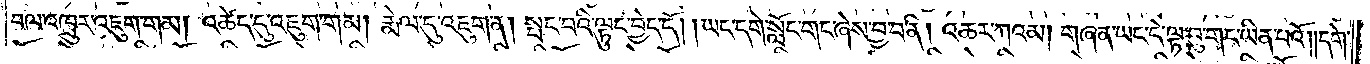བལ་འཁྲུར་འཇུག་གམ། འཚེད་དུ་འཇུག་གམ། རྨེལ་དུ་འཇུག་ན། སྤང་བའི་ལྟུང་བྱེད་དོ། །ཡང་དགེ་སློང་གང་ཞེས་བྱ་བ་ནི། འཆར་ཀའམ། གཞན་ཡང་དེ་ལྟ་བུ་གང་ཡིན་པའོ༎དགེ་
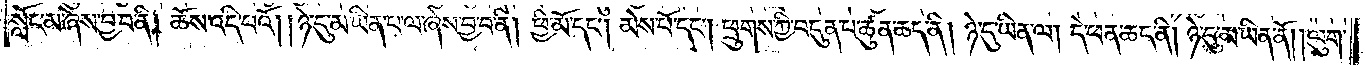སློང་མ་ཞེས་བྱ་བ་ནི། ཆོས་འདི་པའོ། །ཉེ་དུ་མ་ཡིན་པ་ལ་ཞེས་བྱ་བ་ནི། ཕྱི་མོ་དང༌། མེས་པོ་དང༌། ཕྲུགས་ཀྱི་བདུན་པ་ཚུན་ཆད་ནི། ཉེ་དུ་ཡིན་ལ། དེ་ཕན་ཆད་ནི། ཉེ་དུ་མ་ཡིན་ནོ། །ལུག་
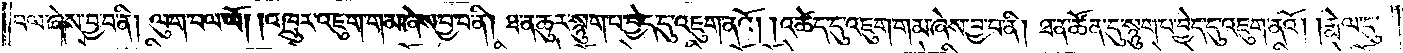བལ་ཞེས་བྱ་བ་ནི། ལུག་བལ་ལོ། །འཁྲུར་འཇུག་གམ་ཞེས་བྱ་བ་ནི། ཐ་ན་ཆུར་སྙུག་པ་བྱེད་དུ་འཇུག་ནའོ། །འཚེད་དུ་འཇུག་གམ་ཞེས་བྱ་བ་ནི། ཐ་ན་ཚོན་དུ་སྙུག་པ་བྱེད་དུ་འཇུག་ནའོ། །རྨེལ་དུ་
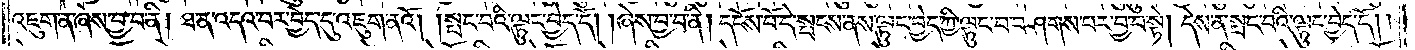འཇུག་ན་ཞེས་བྱ་བ་ནི། ཐ་ན་འདའ་བར་བྱེད་དུ་འཇུག་ནའོ། །སྤང་བའི་ལྟུང་བྱེད་དོ། །ཞེས་བྱ་བ་ནི། དངོས་པོ་དེ་སྤངས་ནས་ལྟུང་བྱེད་ཀྱི་ལྟུང་བ་བཤགས་པར་བྱ་བ་སྟེ། དེས་ན་སྤང་བའི་ལྟུང་བྱེད་དོ༎
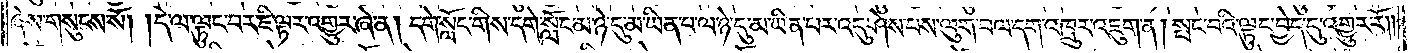ཞེས་གསུངས་སོ། །དེ་ལ་ལྟུང་བར་ཇི་ལྟར་འགྱུར་ཞེ་ན། དགེ་སློང་གིས་དགེ་སློང་མ་ཉེ་དུ་མ་ཡིན་པ་ལ་ཉེ་དུ་མ་ཡིན་པར་འདུ་ཤེས་པས་ལུག་བལ་དག་འཁྲུར་འཇུག་ན། སྤང་བའི་ལྟུང་བྱེད་དུ་འགྱུར་རོ༎
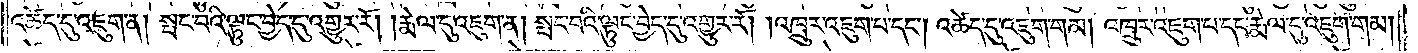འཚེད་དུ་འཇུག་ན། སྤང་བའི་ལྟུང་བྱེད་དུ་འགྱུར་རོ། །རྨེལ་དུ་འཇུག་ན། སྤང་བའི་ལྟུང་བྱེད་དུ་འགྱུར་རོ། །འཁྲུར་འཇུག་པ་དང༌། འཚེད་དུ་འཇུག་གམ། འཁྲུར་འཇུག་པ་དང་རྨེལ་དུ་འཇུག་གམ།
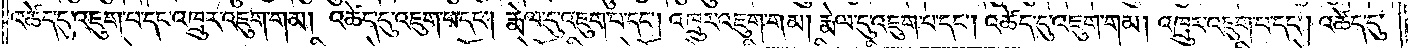འཚེད་དུ་འཇུག་པ་དང་འཁྲུར་འཇུག་གམ། འཚེད་དུ་འཇུག་པ་དང༌། རྨེལ་དུ་འཇུག་པ་དང༌། འཁྲུར་འཇུག་གམ། རྨེལ་དུ་འཇུག་པ་དང༌། འཚེད་དུ་འཇུག་གམ། འཁྲུར་འཇུག་པ་དང༌། འཚེད་དུ་
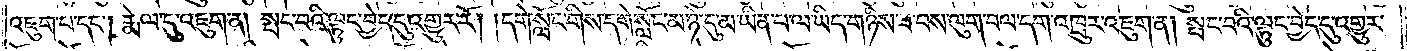འཇུག་པ་དང༌། རྨེལ་དུ་འཇུག་ན། སྤང་བའི་ལྟུང་བྱེད་དུ་འགྱུར་རོ། །དགེ་སློང་གིས་དགེ་སློང་མ་ཉེ་དུ་མ་ཡིན་པ་ལ་ཡིད་གཉིས་ཟ་བས་ལུག་བལ་དག་འཁྲུར་འཇུག་ན། སྤང་བའི་ལྟུང་བྱེད་དུ་འགྱུར་
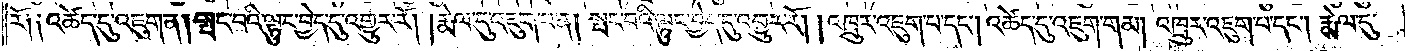རོ༑ འཆེད་དུ་འཇུག་ན། སྤང་བའི་ལྟུང་བྱེད་དུ་འགྱུར་རོ། །རྨེལ་དུ་འཇུག་པ་ན། སྤང་བའི་ལྟུང་བྱེད་དུ་འགྱུར་རོ། །འཁྲུར་འཇུག་པ་དང༌། འཆེད་དུ་འཇུག་གམ། འཁྲུར་འཇུག་པ་དང༌། རྨེལ་དུ་
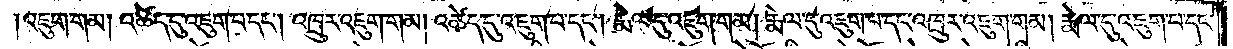འཇུག་གམ། འཚེད་དུ་འཇུག་པ་དང༌། འཁྲུར་འཇུག་གམ། འཚེད་དུ་འཇུག་པ་དང༌། རྨེལ་དུ་འཇུག་གམ། རྨེལ་དུ་འཇུག་པ་དང་འཁྲུར་འཇུག་གམ། རྨེལ་དུ་འཇུག་པ་དང་
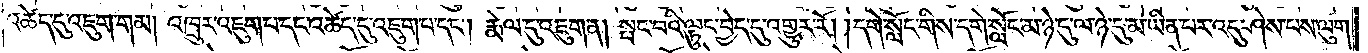འཚེད་དུ་འཇུག་གམ། འཁྲུར་འཇུག་པ་དང་འཚེད་དུ་འཇུག་པ་དང༌། རྨེལ་དུ་འཇུག་ན། སྤང་བའི་ལྟུང་བྱེད་དུ་འགྱུར་རོ། །དགེ་སློང་གིས་དགེ་སློང་མ་ཉེ་དུ་ལ་ཉེ་དུ་མ་ཡིན་པར་འདུ་ཤེས་པས་ལུག་
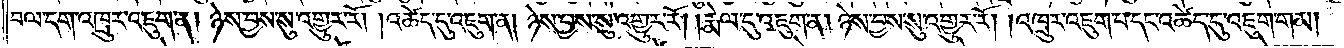བལ་དག་འཁྲུར་འཇུག་ན། ཉེས་བྱས་སུ་འགྱུར་རོ། །འཚེད་དུ་འཇུག་ན། ཉེས་བྱས་སུ་འགྱུར་རོ། །རྨེལ་དུ་འཇུག་ན། ཉེས་བྱས་སུ་འགྱུར་རོ། །འཁྲུར་འཇུག་པ་དང་འཚེད་དུ་འཇུག་གམ།
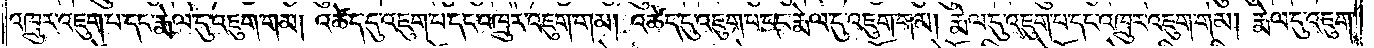འཁྲུར་འཇུག་པ་དང་རྨེལ་དུ་འཇུག་གམ། འཚེད་དུ་འཇུག་པ་དང་འཁྲུར་འཇུག་གམ། འཚེད་དུ་འཇུག་པ་དང་རྨེལ་དུ་འཇུག་གམ། རྨེལ་དུ་འཇུག་པ་དང་འཁྲུར་འཇུག་གམ། རྨེལ་དུ་འཇུག་
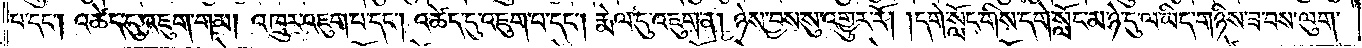པ་དང༌། འཚེད་དུ་འཇུག་གམ། འཁྲུར་འཇུག་པ་དང༌། འཚེད་དུ་འཇུག་པ་དང༌། རྨེལ་དུ་འཇུག་ན། ཉེས་བྱས་སུ་འགྱུར་རོ། །དགེ་སློང་གིས་དགེ་སློང་མ་ཉེ་དུ་ལ་ཡིད་གཉིས་ཟ་བས་ལུག་
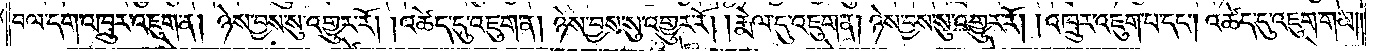བལ་དག་འཁྲུར་འཇུག་ན། ཉེས་བྱས་སུ་འགྱུར་རོ། །འཚེད་དུ་འཇུག་ན། ཉེས་བྱས་སུ་འགྱུར་རོ། །རྨེལ་དུ་འཇུག་ན། ཉེས་བྱས་སུ་འགྱུར་རོ། །འཁྲུར་འཇུག་པ་དང༌། འཚེད་དུ་འཇུག་གམ།
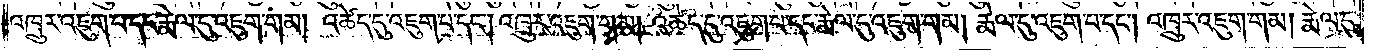འཁྲུར་འཇུག་པ་དང་རྨེལ་དུ་འཇུག་གམ། འཚེད་དུ་འཇུག་པ་དང༌། འཁྲུར་འཇུག་གམ། འཚེད་དུ་འཇུག་པ་དང་རྨེལ་དུ་འཇུག་གམ། རྨེལ་དུ་འཇུག་པ་དང༌། འཁྲུར་འཇུག་གམ། རྨེལ་དུ་
